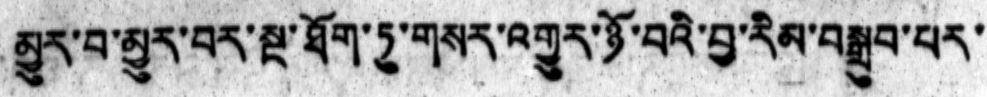མྱུར་བ་མྱུར་བར་སྔ་ཐོག་ཏུ་གསར་འགྱུར་ཉོ་བའི་བྱ་རིམ་བསྒྲུབ་པར་
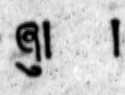ཞུ། །
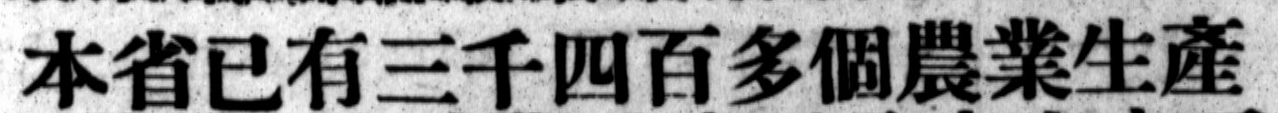本省已有三千四百多個農業生產
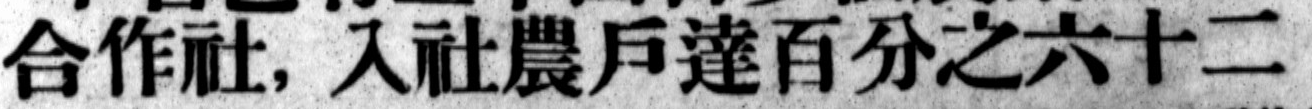合作社，入社農戶達百分之六十二
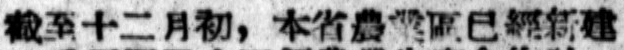截至十二月初，本省農業區已經新建
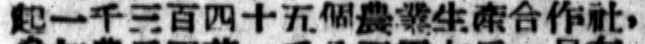起一千三百四十五個農業生產合作社，
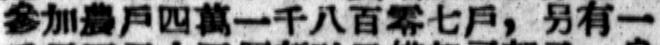參加農戶四萬一千八百零七戶，另有一
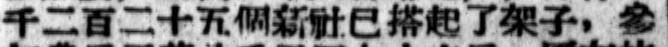千二百二十五個新社已搭起了架子，參
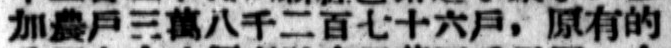加農戶三萬八千二百七十六戶，原有的
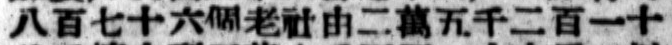八百七十六個老社由二萬五千二百一十
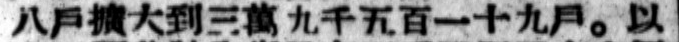八戶擴大到三萬九千五百一十九戶。以
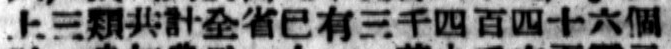上三類共計全省已有三千四百四十六個
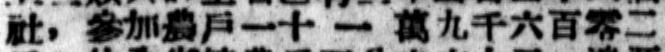社，參加農戶一十 一 萬九千六百零二
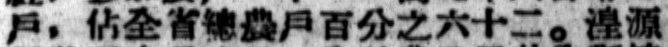戶，佔全省總農戶百分之六十二。湟源
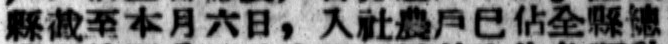縣截至本月六日，入社農戶已佔全縣總
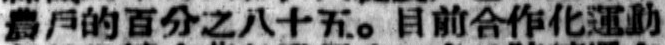農戶的百分之八十五。目前合作化運動
